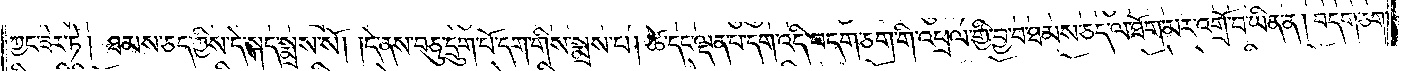ཀྱང་ཟེར་ཏེ། ཐམས་ཅད་ཀྱིས་དེ་སྐད་སྨྲས་སོ། །དེ་ནས་བཅུ་དྲུག་པོ་དག་གིས་སྨྲས་པ། ཚེ་དང་ལྡན་པ་དག་འདི་བདག་ཅག་གི་འཕྲལ་གྱི་བྱ་བ་ཐམས་ཅད་ལ་ཐོག་མར་འགྲོ་བ་ཡིན་ན། བདག་ཅག་
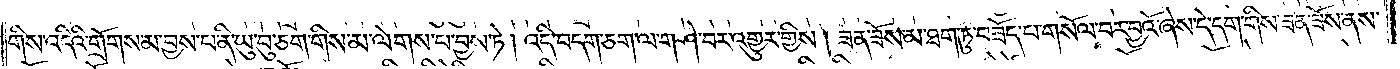གིས་འདིའི་གྲོགས་མ་བྱས་པ་ནི་ཡུ་བུ་ཅག་གིས་མ་ལེགས་པ་བྱས་ཏེ། འདི་བདག་ཅག་ལ་གཤེ་བར་འགྱུར་གྱིས། ཟན་ཟོས་མ་ཐག་ཏུ་བཟོད་པ་གསོལ་བར་བྱའོ་ཞེས་དེ་དག་གིས་ཟན་ཟོས་ནས་
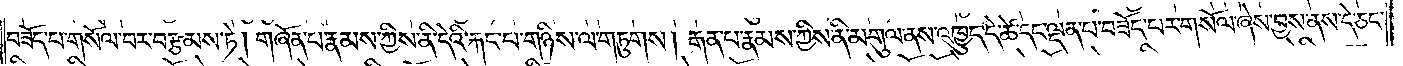བཟོད་པ་གསོལ་བར་བརྩམས་ཏེ། གཞོན་པ་རྣམས་ཀྱིས་ནི་དེའི་རྐང་པ་གཉིས་ལ་གཏུགས། རྒན་པ་རྣམས་ཀྱིས་ནི་མགུལ་ནས་འཁྱུད་དེ་ཚེ་དང་ལྡན་པ་བཟོད་པར་གསོལ་ཞེས་བྱས་ནས་དེ་ཅང་
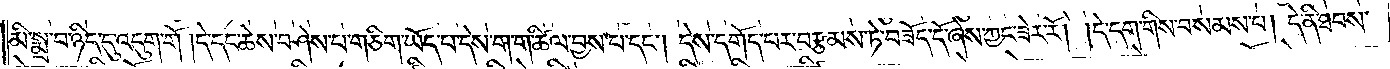མི་སྨྲ་བ་ཉིད་དུ་འདུག་གོ །དེ་དང་ཆེས་བཤེས་པ་གཅིག་ཡོད་པ་དེས་ག་ག་ཚིལ་བྱས་པ་དང༌། དེས་དགོད་པར་བརྩམས་ཏེ་བཟོད་དོ་ཞེས་ཀྱང་ཟེར་རོ། །དེ་དག་གིས་བསམས་པ། དེ་ནི་ཐབས་
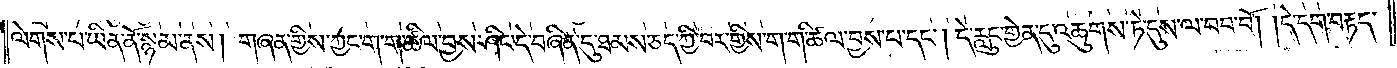ལེགས་པ་ཡིན་ནོ་སྙམ་ནས། གཞན་གྱིས་ཀྱང་ག་ག་ཚིལ་བྱས་ཤིང་དེ་བཞིན་དུ་ཐམས་ཅད་ཀྱི་བར་གྱིས་ག་ག་ཚིལ་བྱས་པ་དང༌། དེ་རླུང་གྱེན་དུ་འཆུགས་ཏེ་དུས་ལ་བབ་བོ། །དེ་དག་བརྟད་
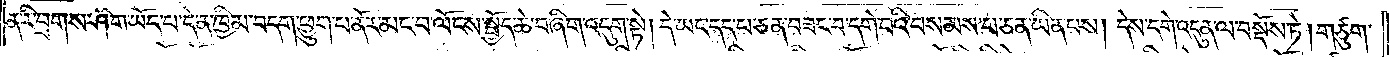ན་རི་བྲགས་ཤིག་ཡོད་པ་དེ་ན་ཁྱིམ་བདག་ཕྱུག་པ་ནོར་མང་བ་ལོངས་སྤྱོད་ཆེ་བ་ཞིག་འདུག་སྟེ། དེ་ཡང་དད་པ་ཅན་བཟང་བ་དགེ་བའི་བསམས་པ་ཅན་ཡིན་པས། དེས་དགེ་འདུན་ལ་བསྡོས་ཏེ། གཙུག་
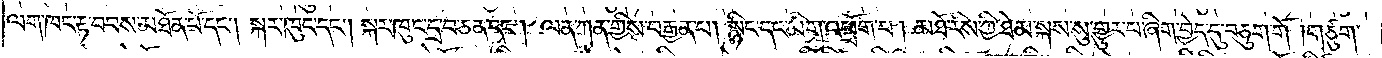ལག་ཁང་རྟ་བབས་མཐོན་པོ་དང༌། སྐར་ཁུང་དང༌། སྐར་ཁུང་དྲ་བ་ཅན་དང༌། ལན་ཀན་གྱིས་བརྒྱན་པ། སྙིང་དང་མིག་འཕྲོག་པ། མཐོ་རིས་ཀྱི་ཐེམ་སྐས་སུ་གྱུར་པ་ཞིག་བྱེད་དུ་བཅུག་གོ །གཙུག་
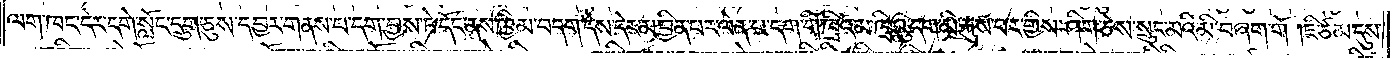ལག་ཁང་དེར་དགེ་སློང་དྲུག་ཅུས་དབྱར་གནས་པ་དག་བྱས་ཏེ་དོང་ནས་ཁྱིམ་བདག་དེས་དེར་མ་བྱིན་པར་ལེན་པ་དག་གི་ཁྲིའམ་ཁྲིའུ་དག་མི་རྐུས་པར་གྱིས་ཤིག་ཅེས་སྲུང་མའི་མི་བཞག་གོ །ཇི་ཙམ་དུས་
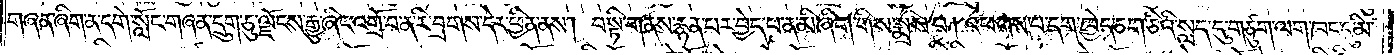གཞན་ཞིག་ན་དགེ་སློང་གཞན་དྲུག་ཅུ་ལྗོངས་རྒྱུ་ཞིང་འགྲོ་བ་ན་རི་བྲགས་དེར་ཕྱིན་ནས། བསྟི་གནས་རྙན་པར་བྱེད་པ་ན་མི་ཞིག་གིས་སྨྲས་པ། འཕགས་པ་དག་ཁྱེད་ཅག་ཅིའི་སླད་དུ་གཙུག་ལག་ཁང་དུ་མི་
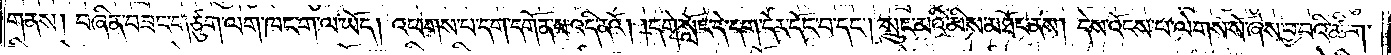གནས། བཞིན་བཟང་གཙུག་ལག་ཁང་ག་ལ་ཡོད། འཕགས་པ་དག་དགོན་པ་འདི་ནའོ། །དགེ་སློང་དེ་དག་དེར་དོང་བ་དང༌། སྲུང་མའི་མིས་མཐོང་ནས། དེས་འོངས་པ་ལེགས་སོ་ཞེས་བྱ་བའི་ཚིག་
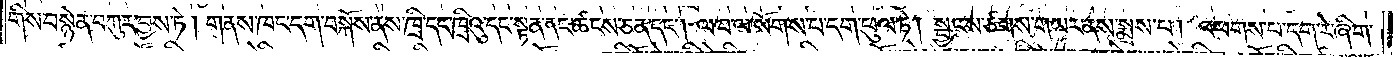གིས་བསྙེན་བཀུར་བྱས་ཏེ། གནས་ཁང་དག་བསྐོས་ནས་ཁྲི་དང་ཁྲིའུ་དང་སྟན་ནང་ཚངས་ཅན་དང༌། ལ་བ་ལ་སོགས་པ་དག་ཕུལ་ཏེ། སྦྱངས་ཙགས་གཡར་ནས་སྨྲས་པ། འཕགས་པ་དག་རེ་ཞིག་
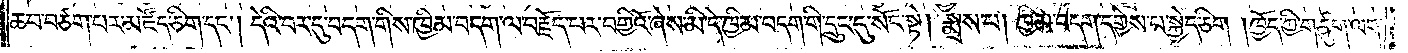ཆབ་བཙག་པར་མཛོད་ཅིག་དང༌། དེའི་བར་དུ་བདག་གིས་ཁྱིམ་བདག་ལ་བརྗོད་པར་བགྱིའོ་ཞེས་མི་དེ་ཁྱིམ་བདག་གི་དྲུང་དུ་སོང་སྟེ། སྨྲས་པ། ཁྱིམ་བདག་དགྱེས་པ་སྐྱེད་ཅིག །ཁྱོད་ཀྱི་གཙུག་ལག་
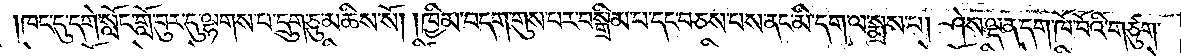ཁང་དུ་དགེ་སློང་གློ་བུར་དུ་ལྷགས་པ་དྲུག་ཅུ་མཆིས་སོ། །ཁྱིམ་བདག་གུས་པར་བསྒྲིམ་པ་དང་བཅས་པས་ནང་མི་དག་ལ་སྨྲས་པ། ཤེས་ལྡན་དག་ཁོ་བོའི་གཙུག་
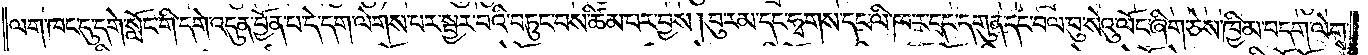ལག་ཁང་དུ་དགེ་སློང་གི་དགེ་འདུན་བྱོན་པ་དེ་དག་ལེགས་པར་སྦྱར་བའི་བཏུང་བས་ཚིམ་པར་བྱས། བུ་རམ་དང་ཧྭགས་དང་ལི་ཁར་དང་དགུན་དང་བལ་བུ་སེའུ་ལོང་ཞིག་ཅེས་ཁྱིམ་བདག་ལེགས་
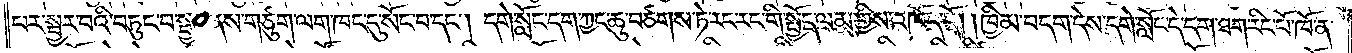པར་སྦྱར་བའི་བཏུང་བ་སྦྱར་ནས་གཙུག་ལག་ཁང་དུ་སོང་བ་དང༌། དགེ་སློང་དག་ཀྱང་ཆུ་བཙགས་ཏེ་རང་རང་གི་སྤྱོད་ལམ་གྱིས་འཁོད་དོ། །ཁྱིམ་བདག་དེས་དགེ་སློང་དེ་དག་ཐག་རིང་པོ་ཁོ་ན་
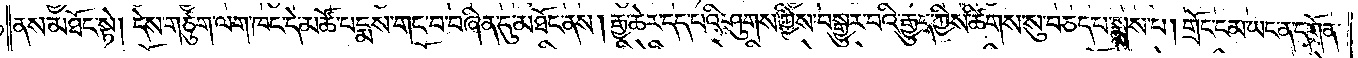ནས་མཐོང་སྟེ། དེས་གཙུག་ལག་ཁང་དེ་མཚོ་པདྨས་གང་བ་བཞིན་དུ་མཐོང་ནས། རྒྱ་ཆེར་དད་པའི་ཤུགས་ཀྱིས་བསྒྱུར་བའི་རྒྱུད་ཀྱིས་ཚིགས་སུ་བཅད་པ་སྨྲས་པ། གྲོང་ངམ་ཡང་ན་དགོན་
